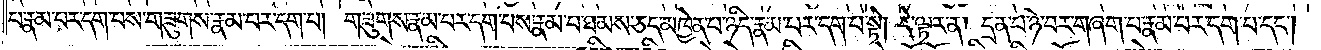པ་རྣམ་པར་དག་པས་གཟུགས་རྣམ་པར་དག་པ། གཟུགས་རྣམ་པར་དག་པས་རྣམ་པ་ཐམས་ཅད་མཁྱེན་པ་ཉིད་རྣམ་པར་དག་པ་སྟེ། དེ་ལྟར་ན། དྲན་པ་ཉེ་བར་གཞག་པ་རྣམ་པར་དག་པ་དང༌།
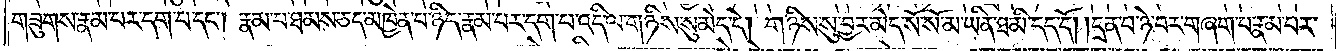གཟུགས་རྣམ་པར་དག་པ་དང༌། རྣམ་པ་ཐམས་ཅད་མཁྱེན་པ་ཉིད་རྣམ་པར་དག་པ་འདི་ལ་གཉིས་སུ་མེད་དེ། གཉིས་སུ་བྱར་མེད་སོ་སོ་མ་ཡིན་ཐ་མི་དད་དོ། །དྲན་པ་ཉེ་བར་གཞག་པ་རྣམ་པར་
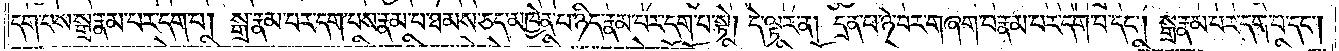དག་པས་སྒྲ་རྣམ་པར་དག་པ། སྒྲ་རྣམ་པར་དག་པས་རྣམ་པ་ཐམས་ཅད་མཁྱེན་པ་ཉིད་རྣམ་པར་དག་པ་སྟེ། དེ་ལྟར་ན། དྲན་པ་ཉེ་བར་གཞག་པ་རྣམ་པར་དག་པ་དང༌། སྒྲ་རྣམ་པར་དག་པ་དང༌།
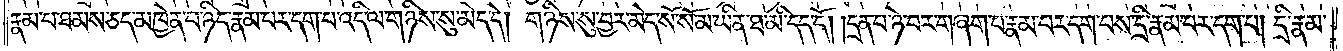རྣམ་པ་ཐམས་ཅད་མཁྱེན་པ་ཉིད་རྣམ་པར་དག་པ་འདི་ལ་གཉིས་སུ་མེད་དེ། གཉིས་སུ་བྱར་མེད་སོ་སོ་མ་ཡིན་ཐ་མི་དད་དོ། །དྲན་པ་ཉེ་བར་གཞག་པ་རྣམ་པར་དག་པས་དྲི་རྣམ་པར་དག་པ། དྲི་རྣམ་
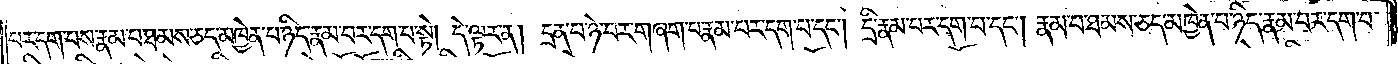པར་དག་པས་རྣམ་པ་ཐམས་ཅད་མཁྱེན་པ་ཉིད་རྣམ་པར་དག་པ་སྟེ། དེ་ལྟར་ན། དྲན་པ་ཉེ་བར་གཞག་པ་རྣམ་པར་དག་པ་དང༌། དྲི་རྣམ་པར་དག་པ་དང༌། རྣམ་པ་ཐམས་ཅད་མཁྱེན་པ་ཉིད་རྣམ་པར་དག་པ་
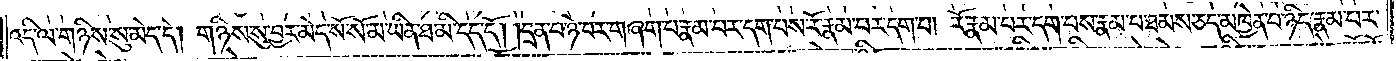འདི་ལ་གཉིས་སུ་མེད་དེ། གཉིས་སུ་བྱར་མེད་སོ་སོ་མ་ཡིན་ཐ་མི་དད་དོ། །དྲན་པ་ཉེ་བར་གཞག་པ་རྣམ་པར་དག་པས་རོ་རྣམ་པར་དག་པ། རོ་རྣམ་པར་དག་པས་རྣམ་པ་ཐམས་ཅད་མཁྱེན་པ་ཉིད་རྣམ་པར་
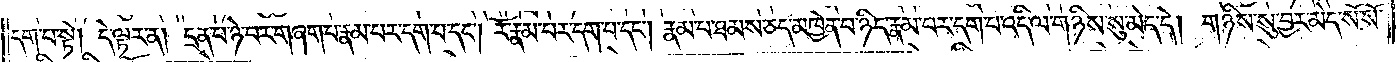དག་པ་སྟེ། དེ་ལྟར་ན། དྲན་པ་ཉེ་བར་གཞག་པ་རྣམ་པར་དག་པ་དང༌། རོ་རྣམ་པར་དག་པ་དང༌། རྣམ་པ་ཐམས་ཅད་མཁྱེན་པ་ཉིད་རྣམ་པར་དག་པ་འདི་ལ་གཉིས་སུ་མེད་དེ། གཉིས་སུ་བྱར་མེད་སོ་སོ་
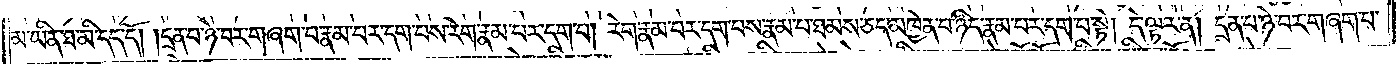མ་ཡིན་ཐ་མི་དད་དོ། །དྲན་པ་ཉེ་བར་བཞག་པ་རྣམ་པར་དག་པས་རེག་རྣམ་པར་དག་པ། རེག་རྣམ་པར་དག་པས་རྣམ་པ་ཐམས་ཅད་མཁྱེན་པ་ཉིད་རྣམ་པར་དག་པ་སྟེ། དེ་ལྟར་ན། དྲན་པ་ཉེ་བར་གཞག་པ་
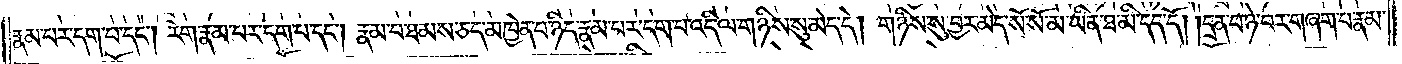རྣམ་པར་དག་པ་དང༌། རེག་རྣམ་པར་དག་པ་དང༌། རྣམ་པ་ཐམས་ཅད་མཁྱེན་པ་ཉིད་རྣམ་པར་དག་པ་འདི་ལ་གཉིས་སུ་མེད་དེ། གཉིས་སུ་བྱར་མེད་སོ་སོ་མ་ཡིན་ཐ་མི་དད་དོ། །དྲན་པ་ཉེ་བར་གཞག་པ་རྣམ་
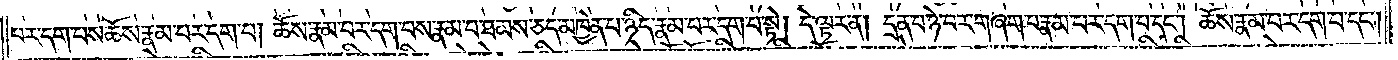པར་དག་པས་ཆོས་རྣམ་པར་དག་པ། ཆོས་རྣམ་པར་དག་པས་རྣམ་པ་ཐམས་ཅད་མཁྱེན་པ་ཉིད་རྣམ་པར་དག་པ་སྟེ། དེ་ལྟར་ན། དྲན་པ་ཉེ་བར་གཞག་པ་རྣམ་པར་དག་པ་དང༌། ཆོས་རྣམ་པར་དག་པ་དང༌།
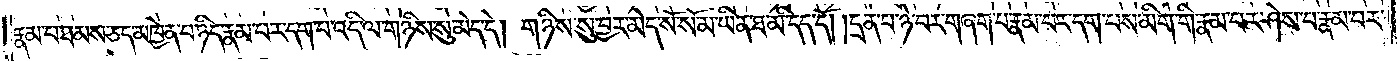རྣམ་པ་ཐམས་ཅད་མཁྱེན་པ་ཉིད་རྣམ་པར་དག་པ་འདི་ལ་གཉིས་སུ་མེད་དེ། གཉིས་སུ་བྱར་མེད་སོ་སོ་མ་ཡིན་ཐ་མི་དད་དོ། །དྲན་པ་ཉེ་བར་གཞག་པ་རྣམ་པར་དག་པས་མིག་གི་རྣམ་པར་ཤེས་པ་རྣམ་པར་
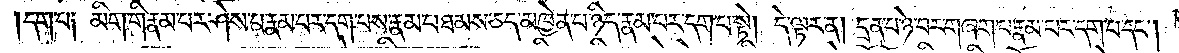དག་པ༑ མིག་གི་རྣམ་པར་ཤེས་པ་རྣམ་པར་དག་པས་རྣམ་པ་ཐམས་ཅད་མཁྱེན་པ་ཉིད་རྣམ་པར་དག་པ་སྟེ། དེ་ལྟར་ན། དྲན་པ་ཉེ་བར་གཞག་པ་རྣམ་པར་དག་པ་དང༌།
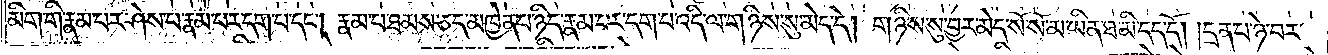མིག་གི་རྣམ་པར་ཤེས་པ་རྣམ་པར་དག་པ་དང༌། རྣམ་པ་ཐམས་ཅད་མཁྱེན་པ་ཉིད་རྣམ་པར་དག་པ་འདི་ལ་གཉིས་སུ་མེད་དེ། གཉིས་སུ་བྱར་མེད་སོ་སོ་མ་ཡིན་ཐ་མི་དད་དོ། །དྲན་པ་ཉེ་བར་
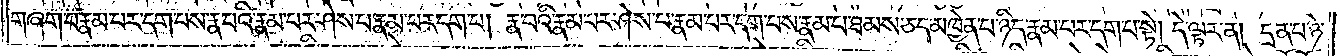གཞག་པ་རྣམ་པར་དག་པས་རྣ་བའི་རྣམ་པར་ཤེས་པ་རྣམ་པར་དག་པ། རྣ་བའི་རྣམ་པར་ཤེས་པ་རྣམ་པར་དག་པས་རྣམ་པ་ཐམས་ཅད་མཁྱེན་པ་ཉིད་རྣམ་པར་དག་པ་སྟེ། དེ་ལྟར་ན། དྲན་པ་ཉེ་
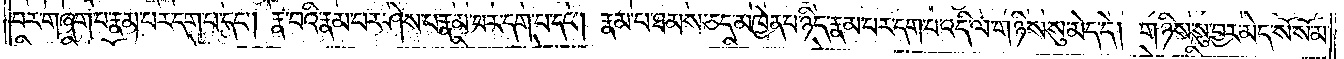བར་གཞག་པ་རྣམ་པར་དག་པ་དང༌། རྣ་བའི་རྣམ་པར་ཤེས་པ་རྣམ་པར་དག་པ་དང༌། རྣམ་པ་ཐམས་ཅད་མཁྱེན་པ་ཉིད་རྣམ་པར་དག་པ་འདི་ལ་གཉིས་སུ་མེད་དེ། གཉིས་སུ་བྱར་མེད་སོ་སོ་མ་
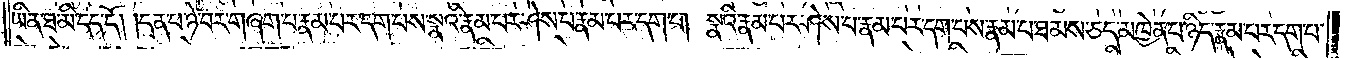ཡིན་ཐ་མི་དད་དོ། །དྲན་པ་ཉེ་བར་གཞག་པ་རྣམ་པར་དག་པས་སྣའི་རྣམ་པར་ཤེས་པ་རྣམ་པར་དག་པ། སྣའི་རྣམ་པར་ཤེས་པ་རྣམ་པར་དག་པས་རྣམ་པ་ཐམས་ཅད་མཁྱེན་པ་ཉིད་རྣམ་པར་དག་པ་
